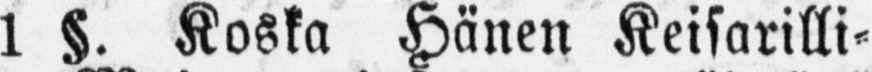1 §. Koska Hänen Keisarilli-
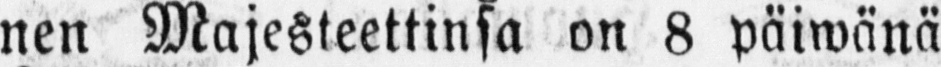nen Majesteettinsa on 8 päiwänä
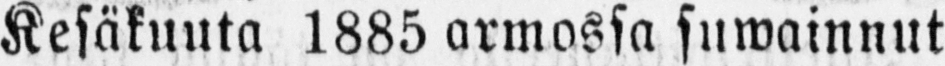Kesäkuuta 1885 armossa suwainnut
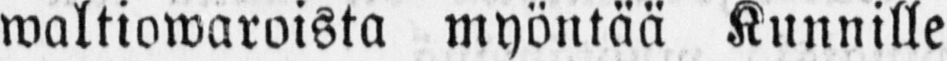waltiowaroista myöntää Kunnille
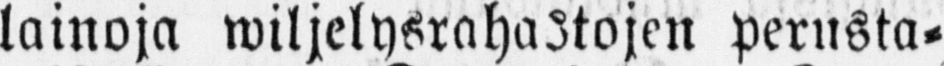lainoja wiljelysrahastojen perusta-
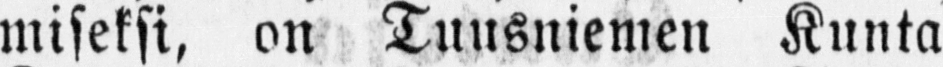miseksi, on Tuusniemen Kunta
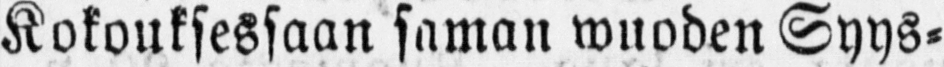Kokouksessaan saman wuoden Syys-
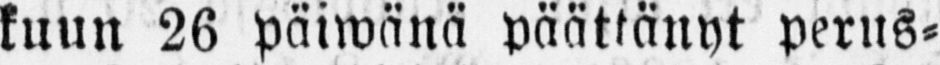kuun 26 päiwänä päättänyt perus-
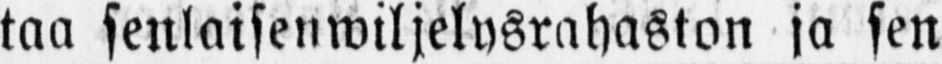taa senlaisenwiljelysrahaston ja sen
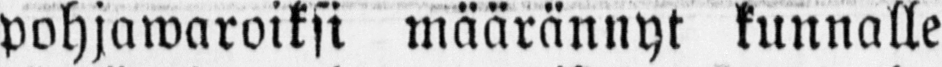pohjawaroiksi määrännyt kunnalle
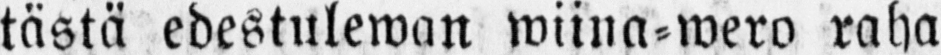tästä edestulewan wiina-wero raha
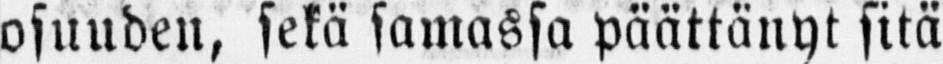osuuden, sekä samassa päättänyt sitä
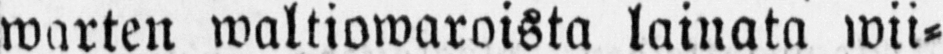warten waltiowaroista lainata wii-
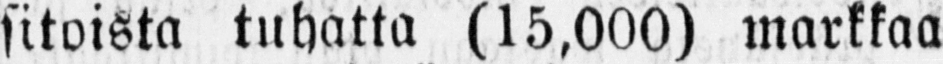sitoista tuhatta (15,000) markkaa
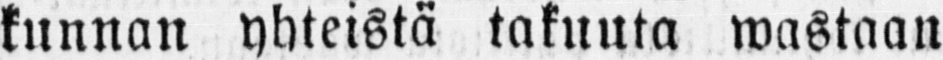kunnan yhteistä takuuta wastaan
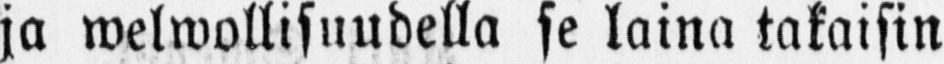ja welwollisuudella se laina takaisin
